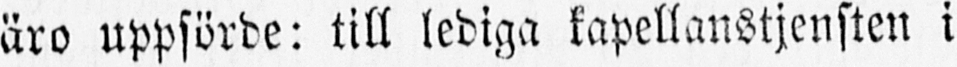äro uppförde: till lediga kapellanstjensten i
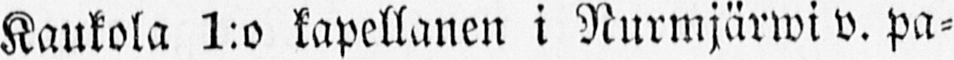Kaukola 1:o kapellanen i Nurmjärwi v. pa-
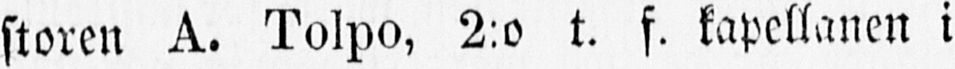storen A. Tolpo, 2:o t. f. kapellanen i
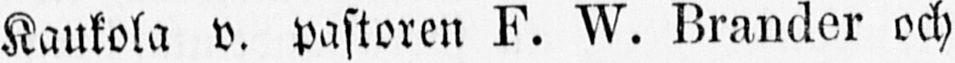Kaukola v. pastoren F. W. Brander och
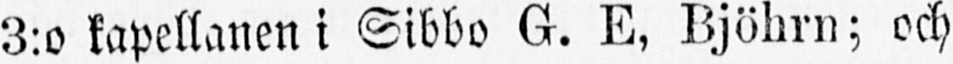3:o kapellanen i Sibbo G. E, Bjöhrn; och
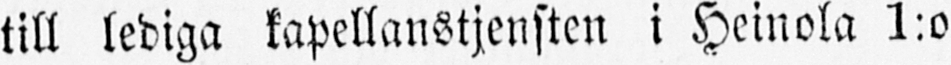till lediga kapellanstjensten i Heinola 1:o
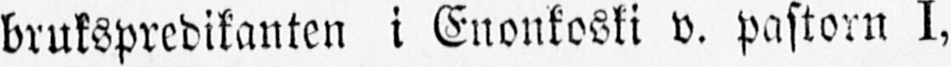brukspredikanten i Enonkoski v. pastorn I,
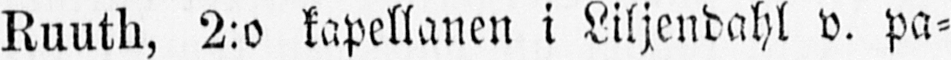Ruuth, 2:o kapellanen i Liljendahl v. pa-
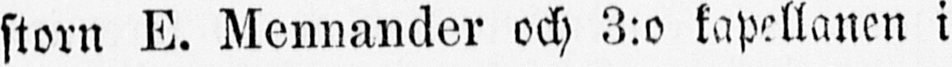storn E. Mennander och 3:o kapellanen i
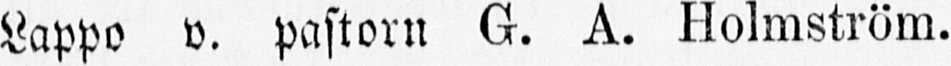Lappo v. pastorn G. A. Holmström.
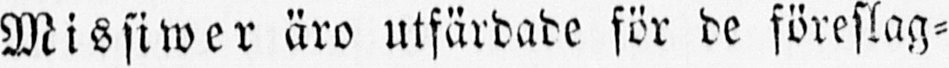Missiwer äro utfärdade för de föreslag-
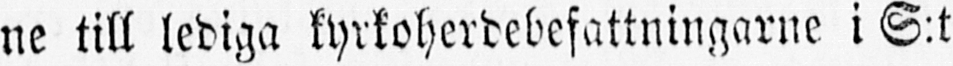ne till lediga kyrkoherdebefattningarne i S:t
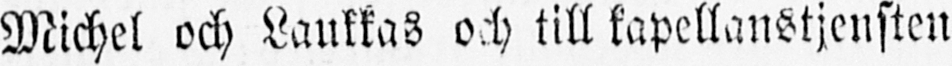Michel och Laukkas och till kapellanstjensten
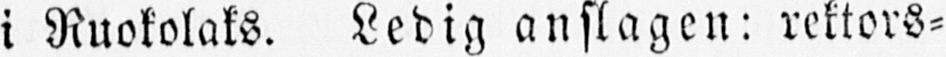i Ruokolaks. Ledig anslagen: rektors-
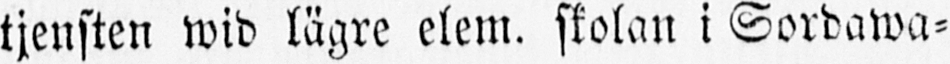tjensten wid lägre elem. skolan i Sordawa-
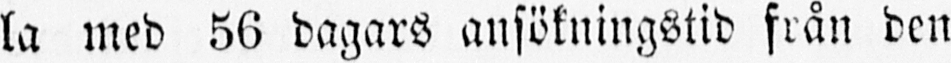la med 56 dagars ansökningstid från den
